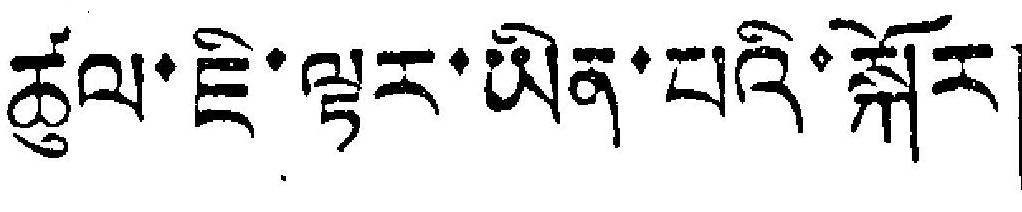ཚུལ་ཇི་ལྟར་ཡིན་པའི་སྐོར།
